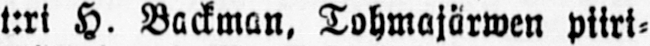t:ri H. Backman. Tohmajärwen piiri-
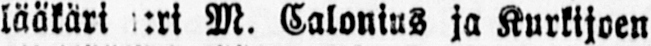lääkäri t:ri M. Calonius ja Kurkijoen
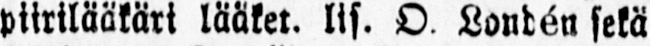piirilääkäri lääket. lis. O Londén sekä
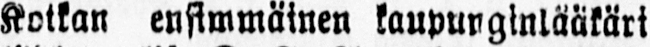Kotkan ensimmäinen kaupunginlääkäri
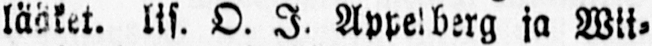lääket. lis. O. I. Appelberg ja Wii-
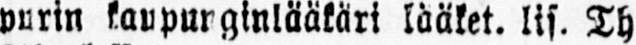purin kaupunginlääkäri lääket. lis. Th.
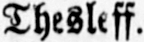Thesleff.
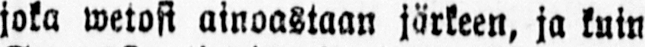joka werosi ainoastaan järkeen, ja kuin
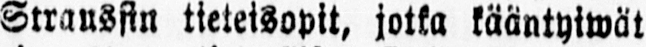Straussin tieteisopit, jotka kääntyiwät
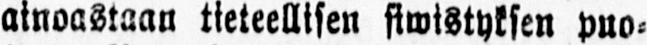ainoastaan tieteellisen siwistyksen puo-
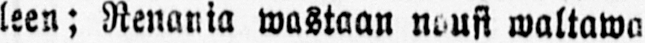leen; Renania wastaan nousi waltawa
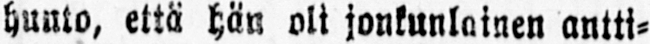huuto, että hän oli jonkunlainen antti-
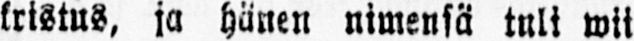kristus, ja hänen nimensä tuli wii
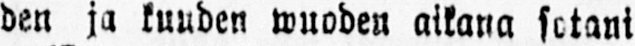den ja kuuden wuoden aikana sotani
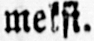meksi.
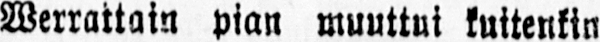Werraitain pian muuttui kuitenkin
